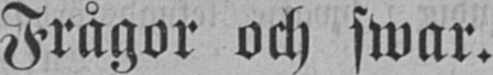Frågor och swar.
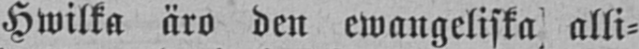Hwilka äro den ewangeliska alli-
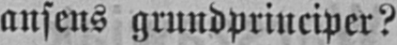ansens grundprinciper?
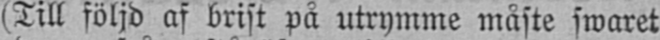(Till följd af brist på utrymme måste swaret
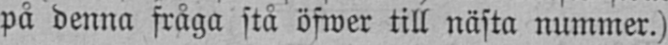på denna fråga stå öfwer till nästa nummer.)
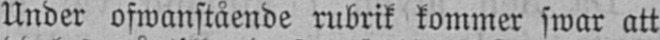Under ofwanstående rubrik kommer swar att
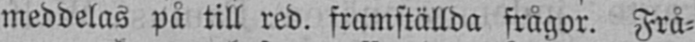meddelas på till red. framställda frågor. Frå-
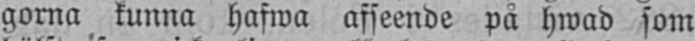gorna kunna hafwa afseende på hwad som
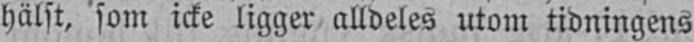hälst, som icke ligger alldeles utom tidningens
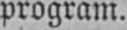program.
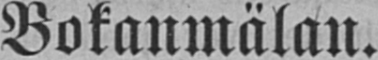Bokanmälan.
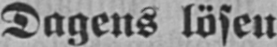Dagens lösen
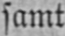samt
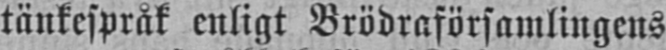tänkespråk enligt Brödraförsamlingens
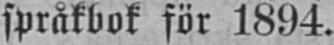språkbok för 1894.
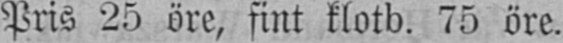Pris 25 öre, fint klotb. 75 öre.
